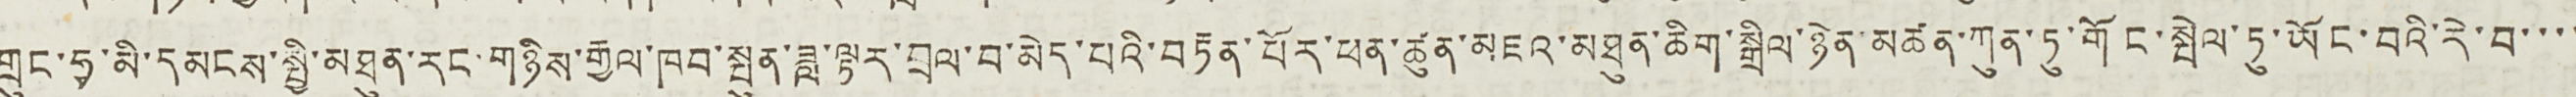གྲུང་ཧྭ་མི་དམངས་སྤྱི་མཐུན་རང་གཉིས་རྒྱལ་ཁབ་སྤུན་ཟླ་ལྟར་བྲལ་བ་མེད་པའི་བརྟན་པོར་ཕན་ཚུན་མཇའ་མཐུན་ཆིག་སྒྲིལ་ཉེན་མཚན་ཀུན་ཏུ་གོང་སྤེལ་ཏུ་ཡོང་བའི་རེ་བ་་་་
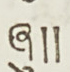ཞུ༎
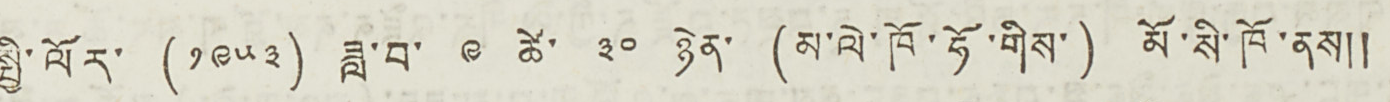སྤྱི་ལོར་ (༡༩༥༣) ཟླ་བ་ ༩ ཚེ་ ༣༠ ཉིན་ (མ་ལེ་ཁོ་ཧོ་གིས་) མོ་སི་ཁོ་ནས༎
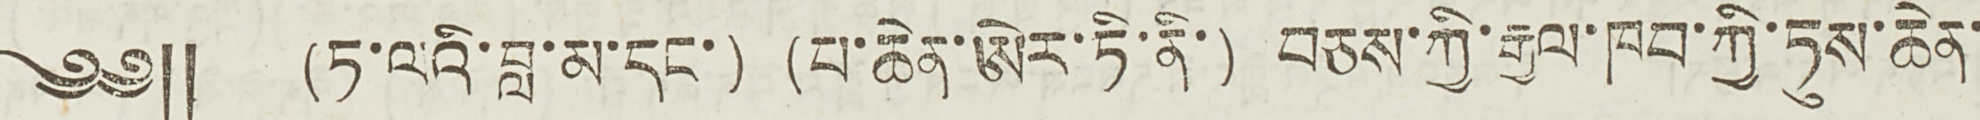༄༅༎ (ཏ་ལའི་བླ་མ་དང་) (པ་ཆེན་ཨེར་ཏི་ནི་) བཅས་ཀྱི་རྒྱལ་ཁབ་ཀྱི་ཏུས་ཆེན་
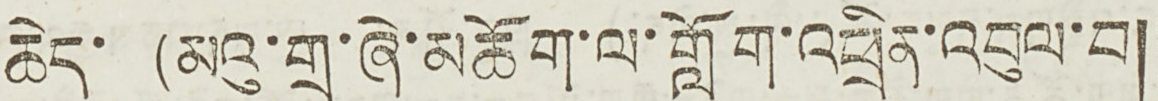ཆེད་ (མའུ་གྲུ་ཞེ་མཆོག་ལ་གློག་འཕྲིན་འབུལ་བ༎
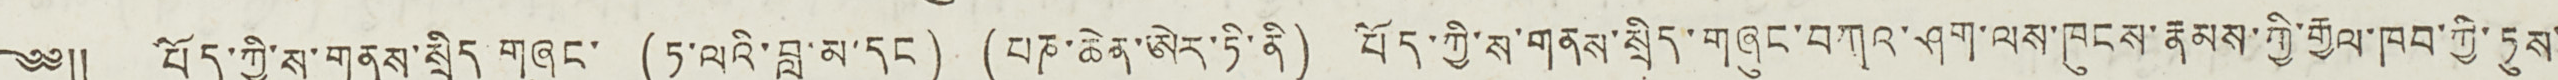༄༅༎ བོད་ཀྱི་ས་གནས་སྲིད གཞུང་ (ཏ་ལའི་བླ་མ་དང་) (པཎ་ཆེན་ཨེར་ཏི་ནི་) བོད་ཀྱི་ས་གནས་སྲིད་གཞུང་བཀའ་ཤག་ལས་ཁུངས་རྣམས་ཀྱི་རྒྱལ་ཁབ་ཀྱི་ཏུས་
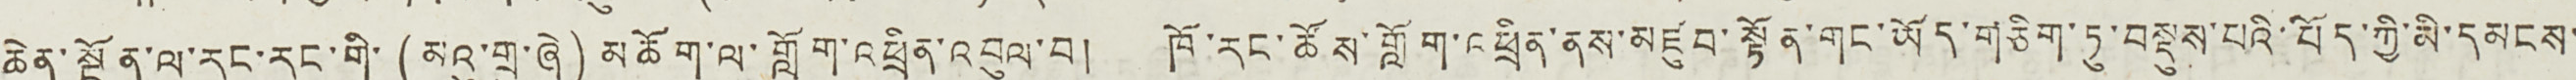ཆེན་སྔོན་ལ་རང་རང་གི་ (མའུ་གྲུ་ཞེ) མཆོག་ལ་གློག་འཕྲིན་འབུལ་བ། ཁོ་རང་ཚོས་གློག་འཕྲིན་ནས་མཛུབ་སྟོན་གང་ཡོད་གཅིག་ཏུ་བསྡུས་པའི་བོད་ཀྱི་མི་དམངས་
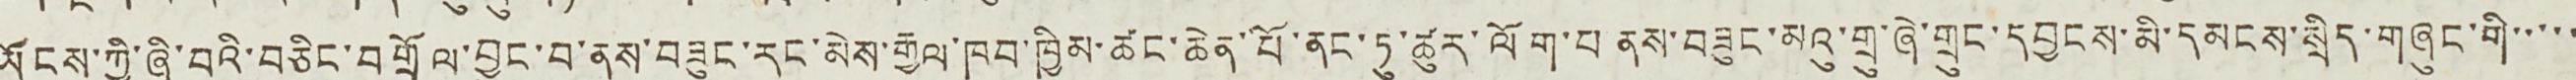ཡོངས་ཀྱི་ཞི་བའི་བཅིང་བགྲོལ་བྱུང་བ་ནས་བཟུང་རང་མིས་རྒྱལ་ཁབ་ཁྱིམ་ཚང་ཆེན་པོ་ནང་ཏུ་ཚུར་ལོག་བ ནས་བཟུང་མའུ་གྲུ་ཞེ་གྲུང་དབྱང་མི་དམངས་སྲིད་གཞུང་གི་་་་་
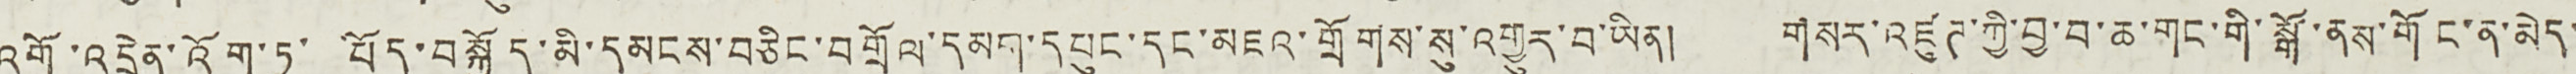འགོ་འདྲེན་འོག་ཏུ་ བོད་བསྐྱོད་མི་དམངས་བཅིང་བགྲོལ་དམག་དཔུང་དང་མཇའ་གྲོགས་སུ་འགྱུར་བ་ཡིན། གསར་འཛུཊ་ཀྱི་བྱ་བ་ཆ་གང་གི་སྒོ་ནས་གོང་ན་མེད་
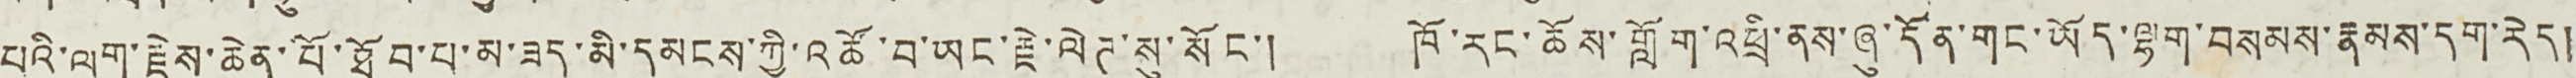པའི་ལག་རྗེས་ཆེན་པོ་ཐོབ་པ་མ་ཟད་མི་དམངས་ཀྱི་འཚོ་བ་ཡང་རྗེ་ལེཊ་སུ་སོང་། ཁོ་རང་ཆོས་གློག་འཕྲི་ནས་ཞུ་དོན་གང་ཡོད་ལྷག་བསམས་རྣམས་དག་རེད།
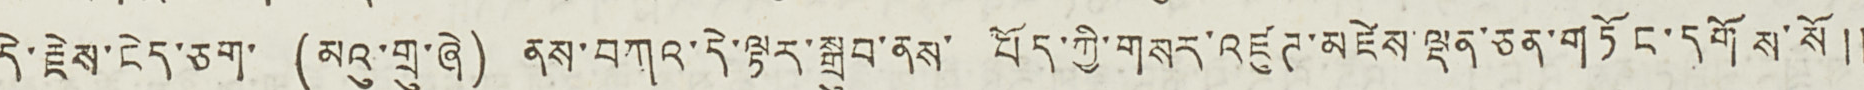དེ་རྗེས་ངེད་ཅག་ (མའུ་གྲུ་ཞེ) ནས་བཀའ་དེ་ལྟར་སྒྲུབ་ནས་ བོད་ཀྱི་གསར་འཛུཊ་མཛེས་ལྡན་ཅན་གཏོང་དགོས་སོ༎
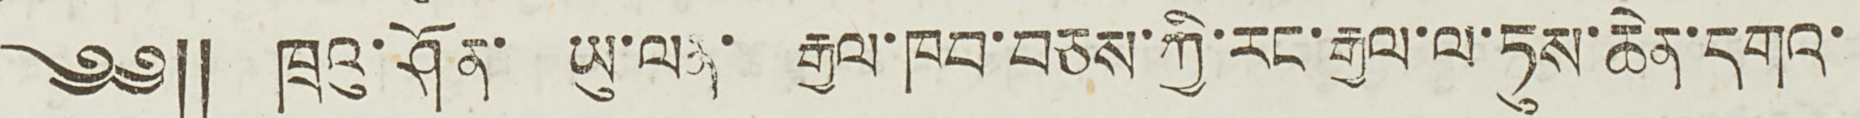༄༅༎ ཁྲའུ་ཤོན་ ཡུ་ལན་ རྒྱལ་ཁབ་བཅས་ཀྱི་རང་རྒྱལ་ལ་ཏུས་ཆེན་དགའ་
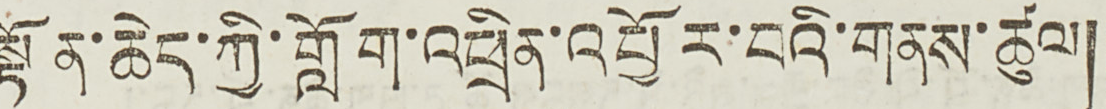སྟོན་ཆེད་ཀྱི་གློག་འཕྲིན་འབྱོར་བའི་གནས་ཚུལ༎
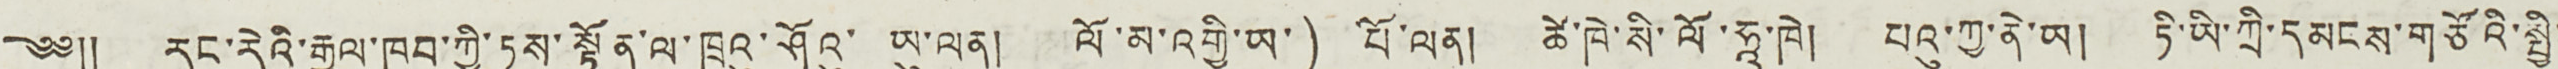༄༅༎ རང་རེའི་རྒྱལ་ཁབ་ཀྱི་ཏུས་སྟོན་ལ་ཁྲའུ་ཤོའུ་ ཡུ་ལན། ལོ་མ་འགྱི་ཡ་) པོ་ལན། ཚེ་ཁེ་སི་ལོ་ཧཱ་ཁེ། པའུ་ཀྱ་ནེ་ཡ། ཏི་ཡི་ཀྲི་དམངས་གཙོའི་སྤྱི་
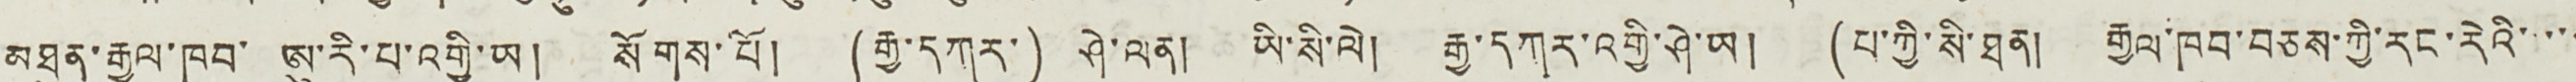མཐུན་རྒྱལ་ཁབ་ ཨུ་རི་པ་འགྱི་ཡ། སོགས་པོ། (རྒྱ་དཀར་) ཤེ་ལན། ཡི་སི་ལེ། རྒྱ་དཀར་འགྱི་ཤེ་ཡ། (པ་ཀྱི་སི་ཐན། རྒྱལ་ཁབ་བཅས་ཀྱི་རང་རེའི་་་་་
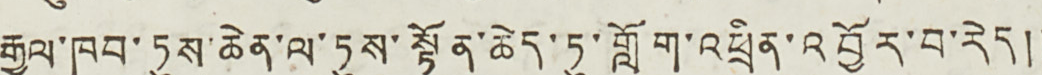རྒྱལ་ཁབ་ཏུས་ཆེན་ལ་ཏུས་སྟོན་ཆེད་ཏུ་གློག་འཕྲིན་འབྱོར་བ་རེད༎
